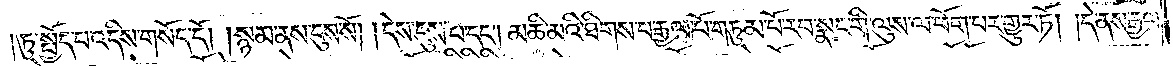ཏུ་སྤྱོད་པ་འདིས་གསོད་དོ། །སྙམ་ནས་དུས་སོ། །དེས་དུས་པ་དང༌། མཆི་མའི་ཐིགས་པ་རྒྱལ་པོ་གཏུམ་པོ་རབ་སྣང་གི་ལུས་ལ་ཕོག་པར་གྱུར་ཏོ། །དེ་ནས་རྒྱལ་
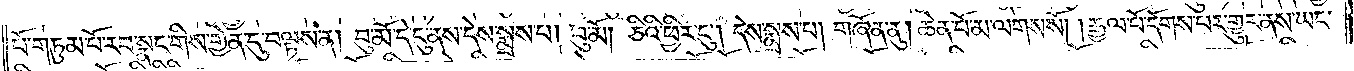པོ་གཏུམ་པོ་རབ་སྣང་གིས་གྱེན་དུ་བལྟས་ན། བུ་མོ་དེ་ངུ་ནས་དེས་སྨྲས་པ། བུ་མོ། ཅིའི་ཕྱིར་དུ། དེས་སྨྲས་པ། གཞོན་ནུ། ཆེན་པོ་མ་ལགས་སོ། །རྒྱལ་པོ་དོགས་པར་གྱུར་ནས་ཡང་
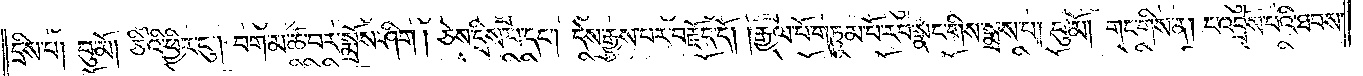དྲིས་པ། བུ་མོ། ཅིའི་ཕྱིར་དུ། བག་མ་ཚ་བར་སྨྲོས་ཤིག། ཅེས་དྲིས་པ་དང༌། དེས་རྒྱས་པར་བརྗོད་དོ། །རྒྱལ་པོ་གཏུམ་པོ་རབ་སྣང་གིས་སྨྲས་པ། བུ་མོ། གང་གིས་ན། ང་འབྲོས་པའི་ཐབས་
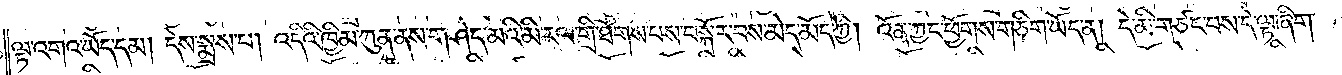ལྟ་འགའ་ཡོད་དམ། དེས་སྨྲས་པ། འདིའི་ཁྱིམ་ཀུན་ནས་གཤེད་མའི་མི་རལ་གྲི་ཐོགས་པས་བསྐོར་བས་མེད་མོད་ཀྱི། འོན་ཀྱང་ཕྱོགས་གཅིག་ཡོད་ན། དེ་མི་གཙང་བས་དེ་ལྟ་ཞིག་
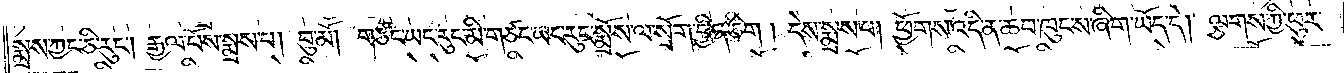སྨྲས་ཀྱང་ཅི་རུང༌། རྒྱལ་པོས་སྨྲས་པ། བུ་མོ། གཙང་ཡང་རུང་མི་གཙང་ཡང་རུང་སྨྲོས་ལ་སྲོག་བྱིན་ཅིག། དེས་སྨྲས་པ། ཕྱོགས་འདི་ན་ཆབ་ཁུང་ས་ཞིག་ཡོད་དེ། ལྕགས་ཀྱི་ཕུར་
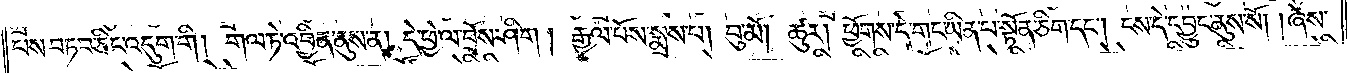པས་བཏབ་ཅིང་འདུག་གི། གལ་ཏེ་འབྱིན་ནུས་ན། དེ་ཕྱེ་ལ་བྲོས་ཤིག། རྒྱལ་པོས་སྨྲས་པ། བུ་མོ། ཚུར། ཕྱོགས་དེ་གང་ཡིན་པ་སྟོན་ཅིག་དང༌། ངས་དེ་དབྱུང་ནུས་སོ། །ཞེས་
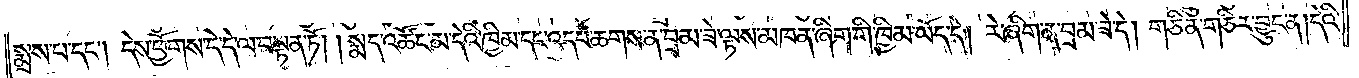སྨྲས་པ་དང༌། དེས་ཕྱོགས་དེ་དེ་ལ་བསྟན་ཏོ། །སྨད་འཚོང་མ་དེའི་ཁྱིམ་དང་འདབ་ཆགས་ན་བྲམ་ཟེ་ལྟས་མཁན་ཞིག་གི་ཁྱིམ་ཡོད་དེ། རེ་ཞིག་ན་བྲམ་ཟེ་དེ། གཅིན་གཅིར་བྱུང་ན། དེའི་
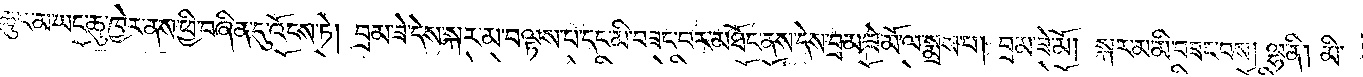ཆུང་མ་ཡང་ཆུ་ཁྱེར་ནས་ཕྱི་བཞིན་དུ་འོངས་ཏེ། བྲམ་ཟེ་དེས་སྐར་མ་བལྟས་པ་དང་མི་བཟང་བར་མཐོང་ནས་དེས་བྲམ་ཟེ་མོ་ལ་སྨྲས་པ། བྲམ་ཟེ་མོ། སྐར་མ་མི་བཟང་བས། ལྷ་ནི། མི་
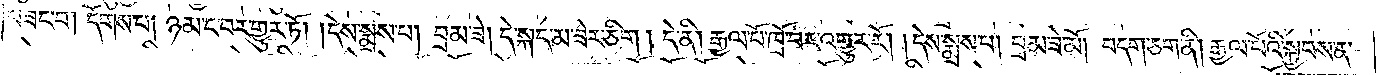བཟང་བ། དོགས་པ། ཉམ་ང་བར་གྱུར་ཏོ། །དེས་སྨྲས་པ། བྲམ་ཟེ། དེ་སྐད་མ་ཟེར་ཅིག། དེ་ནི། རྒྱལ་པོ་ཁྲོ་བར་འགྱུར་རོ། །དེས་སྨྲས་པ། བྲམ་ཟེ་མོ། བདག་ཅག་ནི། རྒྱལ་པོའི་སྐྱབས་ན་
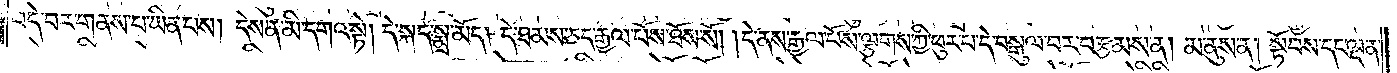བདེ་བར་གནས་པ་ཡིན་པས། དེས་ན་མི་དགའ་སྟེ། དེ་སྐད་སྨྲ་མོད། དེ་ཐམས་ཅད་རྒྱལ་པོས་ཐོས་སོ། །དེ་ནས་རྒྱལ་པོས་ལྕགས་ཀྱི་ཕུར་པ་དེ་བསྒུལ་བར་བརྩམས་ན། མ་ནུས་ན། སྟོབས་དང་ལྡན་
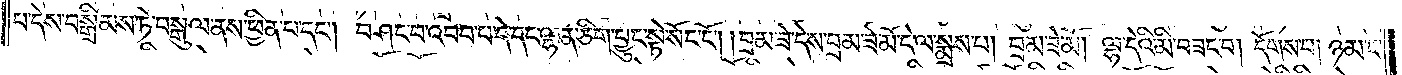པ་དེས་བསྒྲིམས་ཏེ་བསྒུལ་ནས་ཕྱིན་པ་དང༌། བཤང་བ་འབབ་པ་དེ་དང་ལྷན་ཅིག་བྱུང་སྟེ་སོང་ངོ༌། །བྲམ་ཟེ་དེས་བྲམ་ཟེ་མོ་དེ་ལ་སྨྲས་པ། བྲམ་ཟེ་མོ། ལྷ་དེའི་མི་བཟང་བ། དོགས་པ། ཉམ་ང་
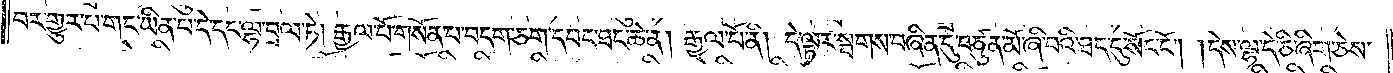བར་གྱུར་པ་གང་ཡིན་པ་དེ་དང་ལྷ་བྲལ་ཏེ། རྒྱལ་པོ་གསོན་པ་བདག་ཅག་དབང་ཐང་ཆེན། རྒྱལ་པོ་ནི། དེ་ལྟར་སྤགས་བཞིན་དུ་བཙུན་མོ་ཞི་བའི་ཐད་དུ་སོང་ངོ༌། །དེས་ལྷ་དེ་ཅི་ཞིག་ཅེས་
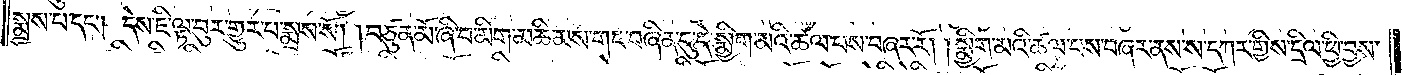སྨྲས་པ་དང༌། དེས་ཇི་ལྟ་བུར་གྱུར་བ་སྨྲས་སོ། །བཙུན་མོ་ཞི་བ་མིག་མཆི་མས་གང་བཞིན་དུ་དེ་སྨྱིག་མའི་ཚལ་པས་བཞར་རོ། །སྨྱིག་མའི་ཚལ་པས་བཞར་ནས་ས་དཀར་གྱིས་དྲིལ་ཕྱི་བྱས་
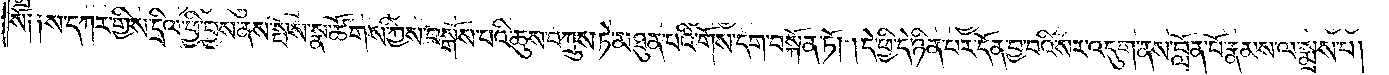སོ༑ ༑ས་དཀར་གྱིས་དྲིལ་ཕྱི་བྱས་ནས་སྤས་སྣ་ཚོགས་ཀྱིས་བསྒོས་པའི་ཆུས་བཀྲུས་ཏེ་མཐུན་པའི་གོས་དག་བསྐོན་ཏོ། །དེ་ཕྱི་དེ་ཉིན་པར་དོན་བྱ་བའི་སར་འདུག་ནས་བློན་པོ་རྣམས་ལ་སྨྲས་པ།
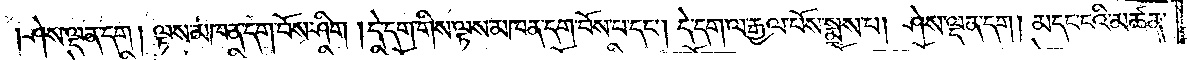ཤེས་ལྡན་དག། ལྟས་མཁན་དག་བོས་ཤིག །དེ་དག་གིས་ལྟས་མཁན་དག་བོས་པ་དང༌། དེ་དག་ལ་རྒྱལ་པོས་སྨྲས་པ། ཤེས་ལྡན་དག། མདང་ངའི་མཚན་
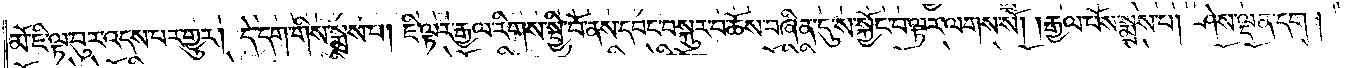མོ་ཇི་ལྟ་བུར་འདས་པར་གྱུར། དེ་དག་གིས་སྨྲས་པ། ཇི་ལྟར་རྒྱལ་རིགས་སྤྱི་བོ་ནས་དབང་བསྐུར་བ་ཆོས་བཞིན་དུ་ས་སྐྱོང་བ་ལྟར་ལགས་སོ། །རྒྱལ་པོས་སྨྲས་པ། ཤེས་ལྡན་དག །
